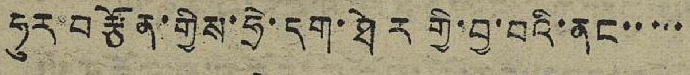ཧུར་བརྩོན་གྱིས་ཧྲེ་དག་ཐེར གྱི་བྱ་བའི་ནང་་་་་
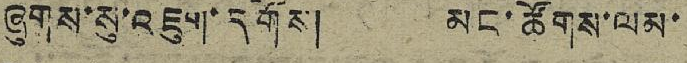ཞུགས་སུ་འཇུག་དགོས། མང་ཚོགས་ལམ་
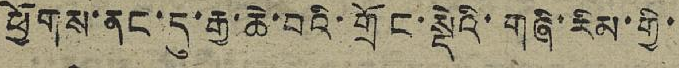ཕྱོགས་ནང་དུ་རྒྱ་ཆེ་བའི་གྲོང་སྡེའི་གཞི་རིམ་གྱི་
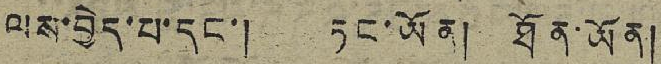ལས་བྱེད་པ་དང་། ཏང་ཡོན། ཐོན་ཡོན།
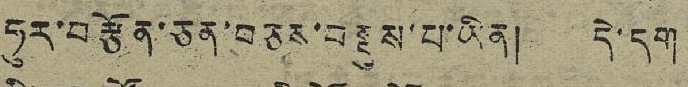ཧུར་བརྩོན་ཅན་བཅས་བསྡུས་པ་ཡིན། དེ་དག
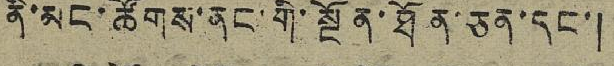ནི་མང་ཚོགས་ནང་གི་སྔོན་ཐོན་ཅན་དང་།
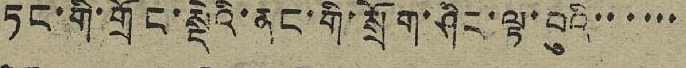ཏང་གི་གྲོང་སྡེའི་ནང་གི་སྲོག་ཤིང་ལྟ་བུའི་་་་་་
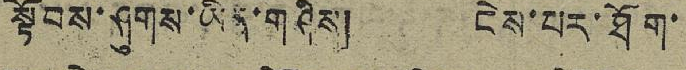སྟོབས་ཤུགས་ཡིན་གཤིས། ངེས་པར་ཐོག་
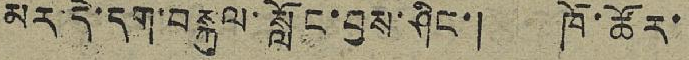མར་དེ་དག་བསྐུལ་སློང་བྱས་ཤིང་། ཁོ་ཚོར་
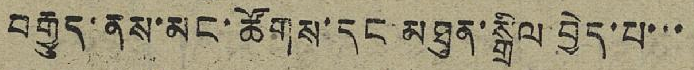བརྒྱུད་ནས་མང་ཚོགས་དང་མཐུན་སྒྲིལ བྱེད་པ་་་
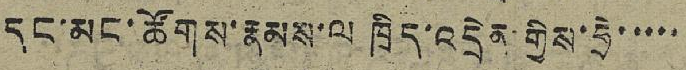དང་མང་ཚོགས་རྣམས་ལ་ཁྲིད་འདྲེན་གྱིས་ཧྲེ་་་་་
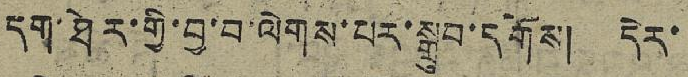དག་ཐེར་གྱི་བྱ་བ་ལེགས་པར་སྒྲུབ་དགོས། དེར་
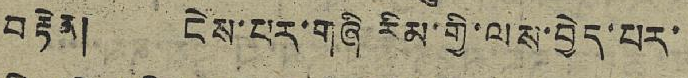བརྟེན། ངེས་པར་གཞི་རིམ་གྱི་ལས་བྱེད་པར་
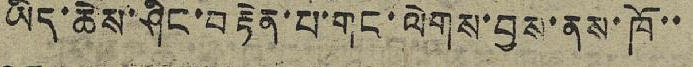ཡིད་ཆེས་ཤིང་བརྟེན་པ་གང་ལེགས་བྱས་ནས་ཁོ་་
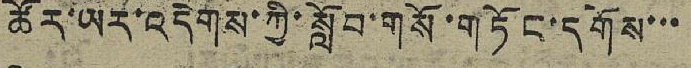ཚོར་ཡར་འདེགས་ཀྱི་སློབ་གསོ་གཏོང་དགོས་་་
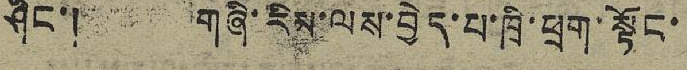ཤིང་། གཞི་རིམ་ལས་བྱེད་པ་ཁྲི་ཕྲག་སྟོང་
